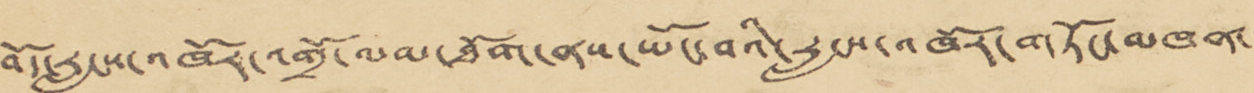བོད་རླངས་འཁོར་འགྲོ་ལམ་ཐོག་ནས་ཡོང་བའི་རླངས་འཁོར་གཏོང་མཁན་་
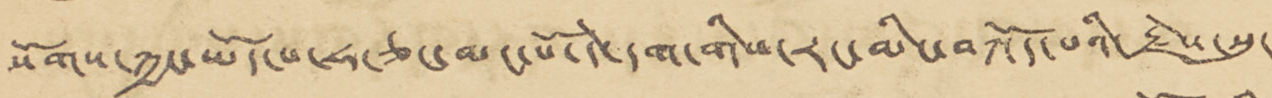སོགས་ཀྱང་ཡོད་པ་ཧ་ཅང་མང་པོ་དེ་དག་གིས་རང་མིང་བཀོད་པའི་རྗེས་སུ་
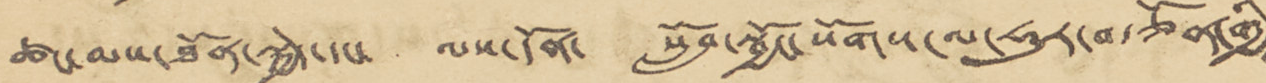ཚང་མས་ཐོན་སྐྱེད་དང་ ལས་དོན་ སློབ་སྦྱོང་སོགས་ལ་ཧུར་བརྩོན་གྱིས་
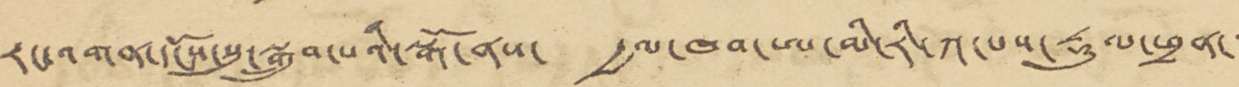རང་འགན་དངོས་སུ་སྒྲུབ་པའི་སྒོ་ནས་ རྒྱལ་ཁབ་ཨ་མི་རི་ཀ་པས་རྡུལ་ཕྲན་་་་་
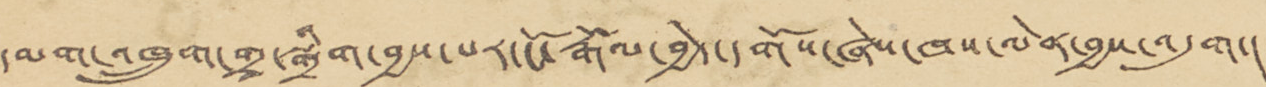དམག་འཁྲུག་གྲྭ་སྒྲིག་བྱས་པར་ངོ་རྒོལ་བྱེད་དགོས་ཞེས་ཁས་ལེན་བྱས་འདུག་།
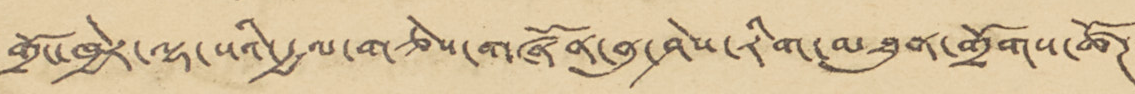གྲོང་ཁྱེར་ལྷ་སའི་རྒྱལ་གཅེས་གཞོན་ནུ་ཤེས་རིག་མཐུན་གྲོགས་ཚོཊ་་
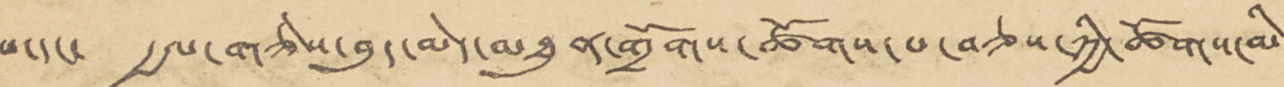པ་དང་ རྒྱལ་གཅེས་བུད་མེད་མཐུན་གྲོགས་ཚོགས་པ་བཅས་ཀྱི་ཚོགས་མི་
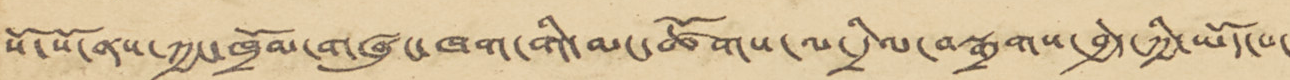སོ་སོ་ནས་ཀྱང་ཁྲོམ་གཞུང་ཁག་གི་མང་ཚོགས་ལ་དྲིལ་བསྒྲགས་བྱེད་ཀྱི་ཡོད་པ་
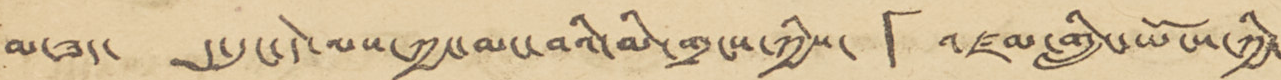མ་ཟད་ ད་དུང་དེ་ལས་ཀྱང་མང་བའི་མི་གྲངས་ཀྱིས་ 「འཛམ་གླིང་ཡོངས་ཀྱི་་
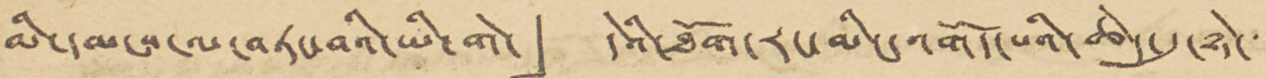མི་དམངས་ལ་བཏང་བའི་ཡི་གེ་」 དེའི་ཐོག་རང་མིང་འགོད་པའི་ཆེད་དུ་ཉེ་་་་་
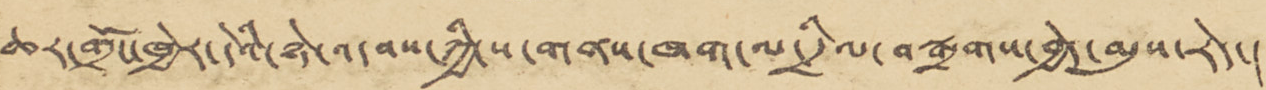ཆར་གྲོང་ཁྱེར་དེའི་ཉེ་འདབས་ཀྱི་ས་གནས་ཁག་ལ་དྲིལ་བསྒྲགས་བྱེད་མུས་རེད་།
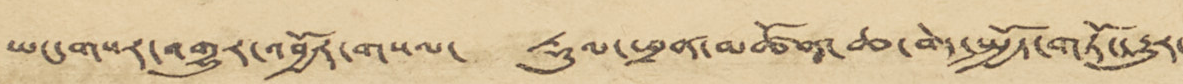ཡང་གསར་འགྱུར་འབྱོར་གསལ་ རྡུལ་ཕྲན་མཚོན་ཆ་བེད་སྤྱོད་གཏོང་རྒྱུར་
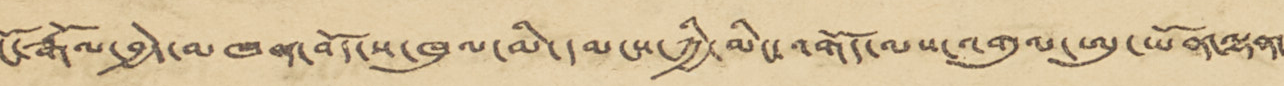ངོ་རྒོལ་བྱེད་མཁན་བོད་ས་ཁུལ་མི་དམངས་ཀྱི་མིང་འགོད་ལས་འགུལ་ཨུ་ཡོན་ལྷན་
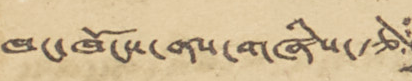ཁང་ཁོངས་ནས་གཞིས་རྩེ
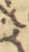ར
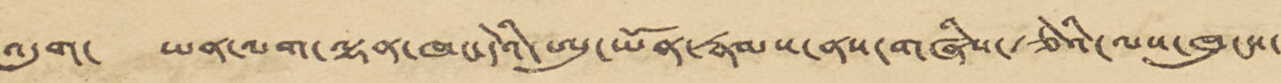འདུག་ ཡན་ལག་ལྷན་ཁང་དེའི་ཨུ་ཡོན་རྣམས་ནས་གཞིས་རྩེའི་ལས་ཁུངས་་
